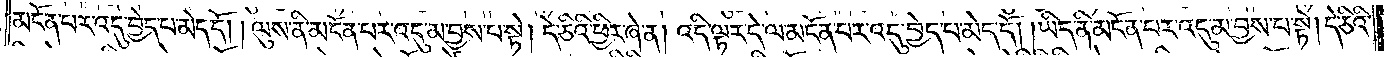མངོན་པར་འདུ་བྱེད་པ་མེད་དོ། །ལུས་ནི་མངོན་པར་འདུ་མ་བྱས་པ་སྟེ། དེ་ཅིའི་ཕྱིར་ཞེ་ན། འདི་ལྟར་དེ་ལ་མངོན་པར་འདུ་བྱེད་པ་མེད་དོ། །ཡིད་ནི་མངོན་པར་འདུ་མ་བྱས་པ་སྟེ། དེ་ཅིའི་
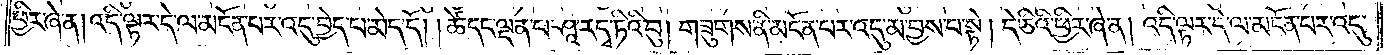ཕྱིར་ཞེ་ན། འདི་ལྟར་དེ་ལ་མངོན་པར་འདུ་བྱེད་པ་མེད་དོ། །ཚེ་དང་ལྡན་པ་ཤཱ་ར་དྭ་ཏིའི་བུ། གཟུགས་ནི་མངོན་པར་འདུ་མ་བྱས་པ་སྟེ། དེ་ཅིའི་ཕྱིར་ཞེ་ན། འདི་ལྟར་དེ་ལ་མངོན་པར་འདུ་
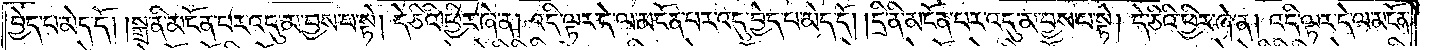བྱེད་པ་མེད་དོ། །སྒྲ་ནི་མངོན་པར་འདུ་མ་བྱས་པ་སྟེ། དེ་ཅིའི་ཕྱིར་ཞེ་ན། འདི་ལྟར་དེ་ལ་མངོན་པར་འདུ་བྱེད་པ་མེད་དོ། །དྲི་ནི་མངོན་པར་འདུ་མ་བྱས་པ་སྟེ། དེ་ཅིའི་ཕྱིར་ཞེ་ན། འདི་ལྟར་དེ་ལ་མངོན་
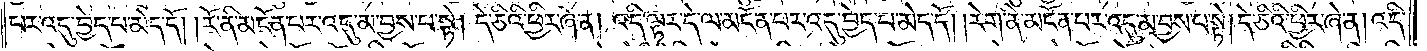པར་འདུ་བྱེད་པ་མེད་དོ། །རོ་ནི་མངོན་པར་འདུ་མ་བྱས་པ་སྟེ། དེ་ཅིའི་ཕྱིར་ཞེ་ན། འདི་ལྟར་དེ་ལ་མངོན་པར་འདུ་བྱེད་པ་མེད་དོ། ། རེག་ནི་མངོན་པར་འདུ་མ་བྱས་པ་སྟེ། དེ་ཅིའི་ཕྱིར་ཞེ་ན། འདི་
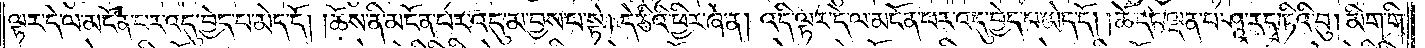ལྟར་དེ་ལ་མངོན་པར་འདུ་བྱེད་པ་མེད་དོ། །ཆོས་ནི་མངོན་པར་འདུ་མ་བྱས་པ་སྟེ། དེ་ཅིའི་ཕྱིར་ཞེ་ན། འདི་ལྟར་དེ་ལ་མངོན་པར་འདུ་བྱེད་པ་མེད་དོ། །ཚེ་དང་ལྡན་པ་ཤཱ་ར་དྭ་ཏིའི་བུ། མིག་གི་
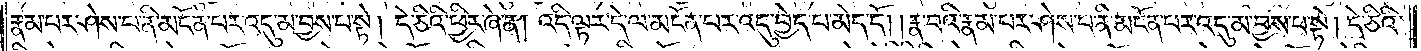རྣམ་པར་ཤེས་པ་ནི་མངོན་པར་འདུ་མ་བྱས་པ་སྟེ། དེ་ཅིའི་ཕྱིར་ཞེ་ན། འདི་ལྟར་དེ་ལ་མངོན་པར་འདུ་བྱེད་པ་མེད་དོ། །རྣ་བའི་རྣམ་པར་ཤེས་པ་ནི་མངོན་པར་འདུ་མ་བྱས་པ་སྟེ། དེ་ཅིའི་
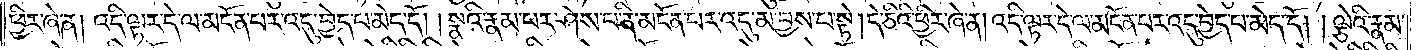ཕྱིར་ཞེ་ན། འདི་ལྟར་དེ་ལ་མངོན་པར་འདུ་བྱེད་པ་མེད་དོ། །སྣའི་རྣམ་པར་ཤེས་པ་ནི་མངོན་པར་འདུ་མ་བྱས་པ་སྟེ། དེ་ཅིའི་ཕྱིར་ཞེ་ན། འདི་ལྟར་དེ་ལ་མངོན་པར་འདུ་བྱེད་པ་མེད་དོ། །ལྕེའི་རྣམ་
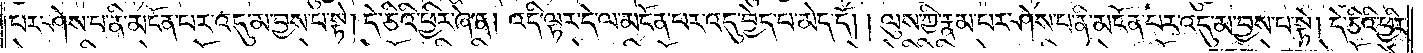པར་ཤེས་པ་ནི་མངོན་པར་འདུ་མ་བྱས་པ་སྟེ། དེ་ཅིའི་ཕྱིར་ཞེ་ན། འདི་ལྟར་དེ་ལ་མངོན་པར་འདུ་བྱེད་པ་མེད་དོ། །ལུས་ཀྱི་རྣམ་པར་ཤེས་པ་ནི་མངོན་པར་འདུ་མ་བྱས་པ་སྟེ། དེ་ཅིའི་ཕྱིར་
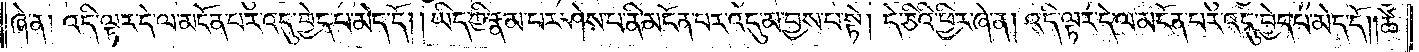ཞེ་ན། འདི་ལྟར་དེ་ལ་མངོན་པར་འདུ་བྱེད་པ་མེད་དོ། །ཡིད་ཀྱི་རྣམ་པར་ཤེས་པ་ནི་མངོན་པར་འདུ་མ་བྱས་པ་སྟེ། དེ་ཅིའི་ཕྱིར་ཞེ་ན། འདི་ལྟར་དེ་ལ་མངོན་པར་འདུ་བྱེད་པ་མེད་དོ། །ཚེ་
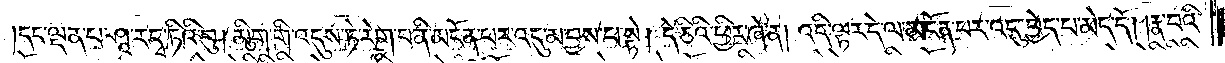དང་ལྡན་པ་ཤཱ་ར་དྭ་ཏིའི་བུ། མིག་གི་འདུས་ཏེ་རེག་པ་ནི་མངོན་པར་འདུ་མ་བྱས་པ་སྟེ། དེ་ཅིའི་ཕྱིར་ཞེ་ན། འདི་ལྟར་དེ་ལ་མངོན་པར་འདུ་བྱེད་པ་མེད་དོ། །རྣ་བའི་
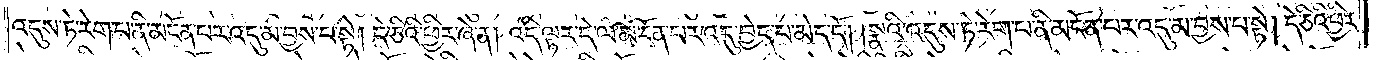འདུས་ཏེ་རེག་པ་ནི་མངོན་པར་འདུ་མ་བྱས་པ་སྟེ། དེ་ཅིའི་ཕྱིར་ཞེ་ན། འདི་ལྟར་དེ་ལ་མངོན་པར་འདུ་བྱེད་པ་མེད་དོ། །སྣའི་འདུས་ཏེ་རེག་པ་ནི་མངོན་པར་འདུ་མ་བྱས་པ་སྟེ། དེ་ཅིའི་ཕྱིར་
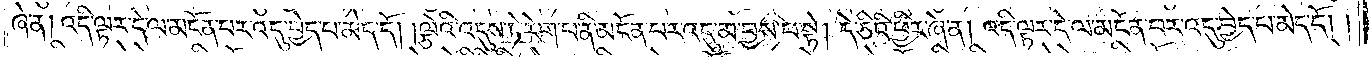ཞེ་ན། འདི་ལྟར་དེ་ལ་མངོན་པར་འདུ་བྱེད་པ་མེད་དོ། །ལྕེའི་འདུས་ཏེ་རེག་པ་ནི་མངོན་པར་འདུ་མ་བྱས་པ་སྟེ། དེ་ཅིའི་ཕྱིར་ཞེ་ན། འདི་ལྟར་དེ་ལ་མངོན་པར་འདུ་བྱེད་པ་མེད་དོ། །
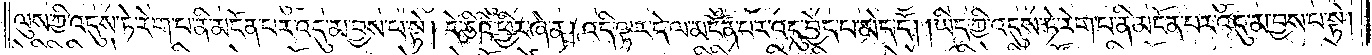ལུས་ཀྱི་འདུས་ཏེ་རེག་པ་ནི་མངོན་པར་འདུ་མ་བྱས་པ་སྟེ། དེ་ཅིའི་ཕྱིར་ཞེ་ན། འདི་ལྟར་དེ་ལ་མངོན་པར་འདུ་བྱེད་པ་མེད་དོ། །ཡིད་ཀྱི་འདུས་ཏེ་རེག་པ་ནི་མངོན་པར་འདུ་མ་བྱས་པ་སྟེ།
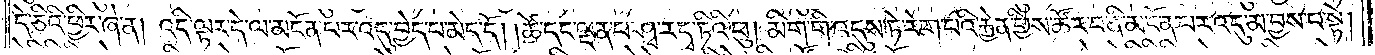དེ་ཅིའི་ཕྱིར་ཞེ་ན། འདི་ལྟར་དེ་ལ་མངོན་པར་འདུ་བྱེད་པ་མེད་དོ། །ཚེ་དང་ལྡན་པ་ཤཱ་ར་དྭ་ཏིའི་བུ། མིག་གི་འདུས་ཏེ་རེག་པའི་རྐྱེན་གྱིས་ཚོར་བ་ནི་མངོན་པར་འདུ་མ་བྱས་པ་སྟེ།
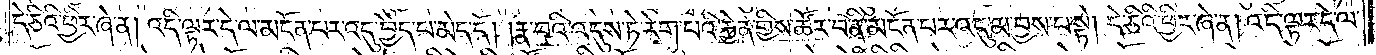དེ་ཅིའི་ཕྱིར་ཞེ་ན། འདི་ལྟར་དེ་ལ་མངོན་པར་འདུ་བྱེད་པ་མེད་དོ། །རྣ་བའི་འདུས་ཏེ་རེག་པའི་རྐྱེན་གྱིས་ཚོར་བ་ནི་མངོན་པར་འདུ་མ་བྱས་པ་སྟེ། དེ་ཅིའི་ཕྱིར་ཞེ་ན། འདི་ལྟར་དེ་ལ་
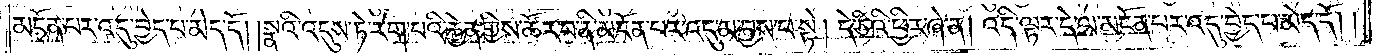མངོན་པར་འདུ་བྱེད་པ་མེད་དོ། །སྣའི་འདུས་ཏེ་རེག་པའི་རྐྱེན་གྱིས་ཚོར་བ་ནི་མངོན་པར་འདུ་མ་བྱས་པ་སྟེ། དེ་ཅིའི་ཕྱིར་ཞེ་ན། འདི་ལྟར་དེ་ལ་མངོན་པར་འདུ་བྱེད་པ་མེད་དོ། །
